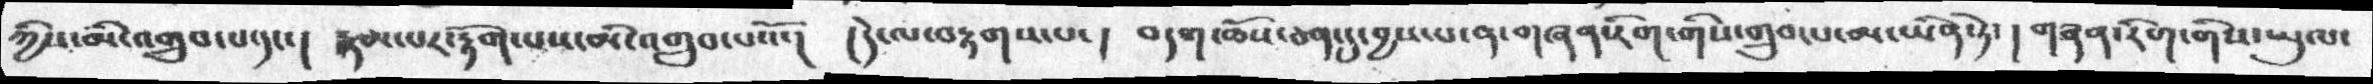ཀྱིས་མི་འགྲུབ་པ་དང་།  རྣམ་པར་རྟོག་པས་མི་འགྲུབ་པའོ་།  །དེ་ལ་བརྟགས་པ་།  བདག་ཆོས་ཅན་དུ་བྱས་པ་ན་གཞན་རིག་གིས་གྲུབ་པ་མ་ཡིན་ཏེ་། གཞན་རིག་གིས་ཡུལ་
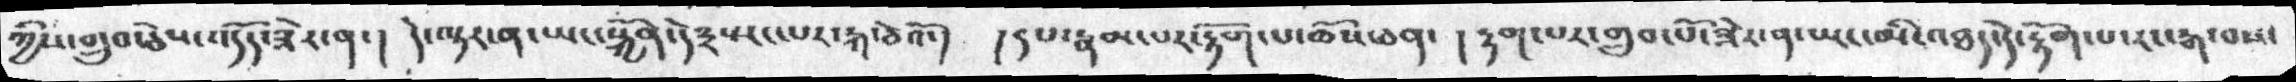ཀྱིས་གྲུབ་ཅེས་འདོད་ཟེར་ན་།  དེ་ལྟར་ན་ཡང་སྐྱོན་དེ༣སྤང་པར་རྐ་ཅེའོ་།  །དཔ་རྣམ་པར་རྟོག་པ་ཆོས་ཅན་ །རྟག་པར་གྲུབ་པོ་ཟེར་ན་ཡང་མི་འཐད་དེ་རྟོག་པ་རང་རྒ་བས་
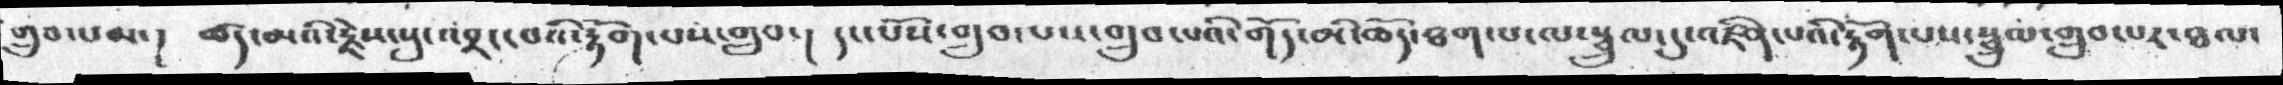གྲུབ་པམ་།  ཚད་མའི་རྗེས་སུ་འབྲང་བའི་རྟོག་པས་གྲུབ་།  དང་པོས་གྲུབ་པས་གྲུབ་པའི་གོད་མི་ཆོད་ཐག་པ་ལ་སྦྲུལ་དུ་འཛིན་པའི་རྟོག་པས་སྦྲུལ་གྲུབ་པར་ཐལ་
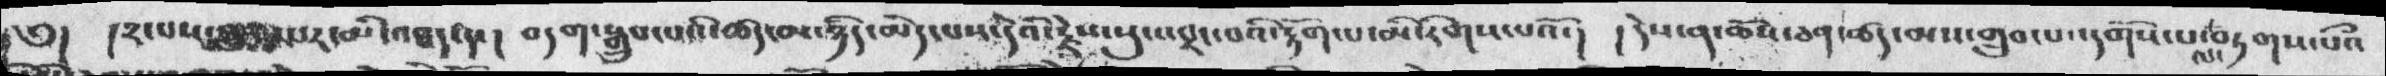༄།  །༢་པས་གྲུབ་པར་མི་འཐད་དེ་།  བདག་སྒྲུ་པའི་ཚད་མ་ཉིད་མེད་པས་དེའི་རྗེས་སུ་འབྲང་བའི་རྟོག་པ་མི་རིགས་པའོ་།  །དེས་ན་ཆོས་ཅན་ཚད་མས་གྲུབ་པ་དགོས་པ་ལ་བཏགས་པའི
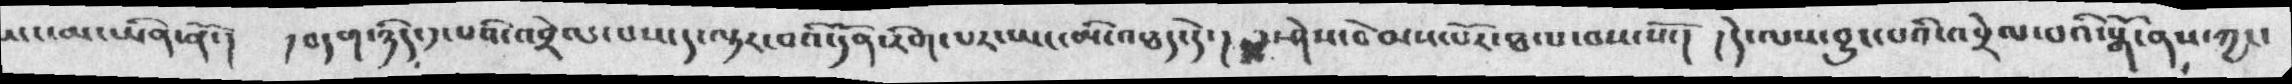སང་མ་ཡིན་ནོ་།  ། བདག་ཉིད་༡་པའི་འབྲེལ་པས་ད་ལྟར་བའི་དོན་རིག་པར་ཡང་མི་འཐད་དེ་།  ཤེས་བེམས་པོར་ཐལ་བས་སོ་།   ། དེ་ལས་བྱུང་པའི་འབྲེལ་བའི་སྒོ་ནས་ཀྱང་
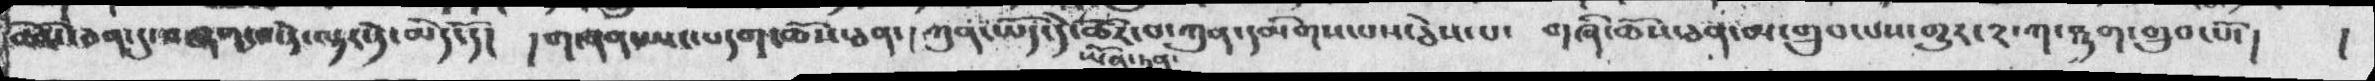ཆོས་ཅན་དུ་བཞག་པ་དེ་ལྟར་དེ་མེད་དོ་།   །གཞན་ཡང་བདག་ཆོས་ཅན་། ཀུན་ཡོད་དེ་ཡོན་ཏན་དེ་ཚོར་བ་ཀུན་དམིགས་པས་ཅེས་པ་   གཞི་ཆོས་ཅན་མ་གྲུབ་པས་གྱུར་༢་ག་ཐུག་གྲུབ་པོ་།   །
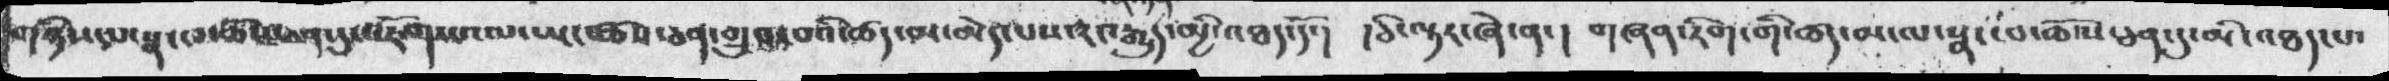གཉིས་པ་སྣང་བ་ཆོས་ཅན་དུ་འཇོགས་པ་ལ་ཡང་ཆོས་ཅན་གྲུབ་པའི་ཚད་མ་མེད་པས་རང་རྒྱུད་མྱི་འཐད་དོ་།   ། ཅི་ལྟེ་ཞེ་ན་།  གཞན་རིག་གི་ཚད་མ་ལ་སྣང་བ་ཆོས་ཅན་དུ་མི་འཐད་པ་
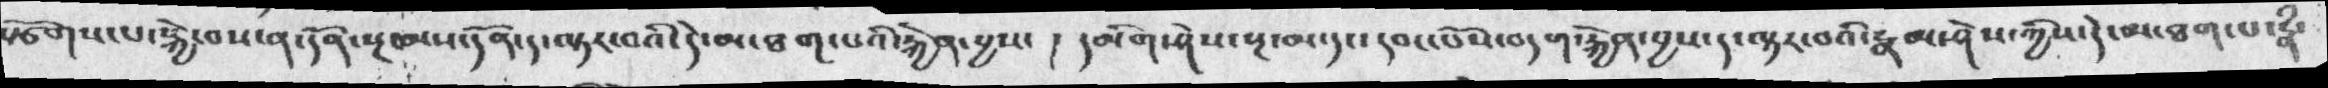སྩོགས་པ་སྐྱེ་བས་ན་དོན་སྔ་མས་དོན་ད་ལྟར་བའི་དེ་མ་ཐག་པའི་རྐྱེན་བྱས་ ། དམིག་ཤེས་སྔ་མ་དང་དབང་པོས་བདག་རྐྱེན་བྱས་ད་ལྟར་བའི་རྣམ་ཤེས་ཀྱིས་དེ་མ་ཐག་པ་རྣཾ་
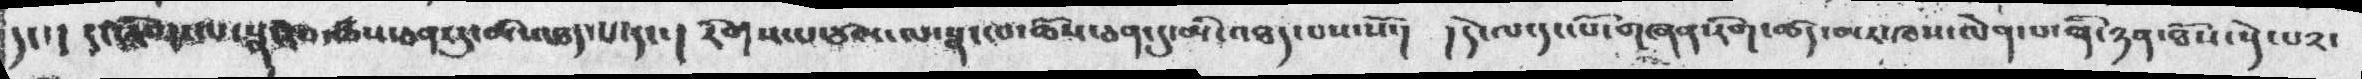དང་།  དང་རིག་པ་ལ་སྣང་བ་ཆོས་ཅན་དུ་མི་འཐད་པ་དང་།  རིགས་པ་ཙམ་ལ་སྣང་བ་ཆོས་ཅན་དུ་མི་འཐད་པས་སོ་།  ། དེ་ལ་དང་པོ་གཞན་རིག་ཚད་མར་ཁས་ལེན་པ་ནི་ཉན་ཐོས་སྡེ་པ༢་
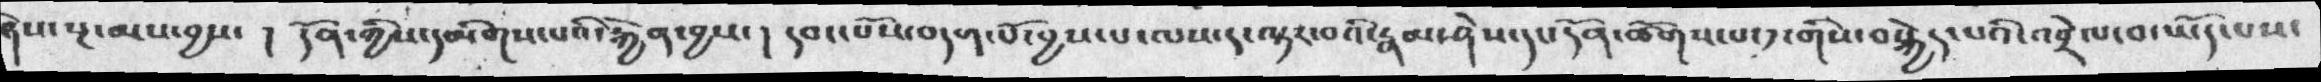ཞེས་སྔ་མས་བྱས་ ། དོན་ཀྱིས་དམིགས་པའི་རྐྱེན་བྱས་། དབང་པོས་བདག་པོ་བྱས་པ་ལས་ད་ལྟར་བའི་རྣམ་ཤེས་དང་དོན་ཚོགས་པ་༡་གིས་བསྐྱེད་པའི་འབྲེལ་བ་ཡོད་པས་
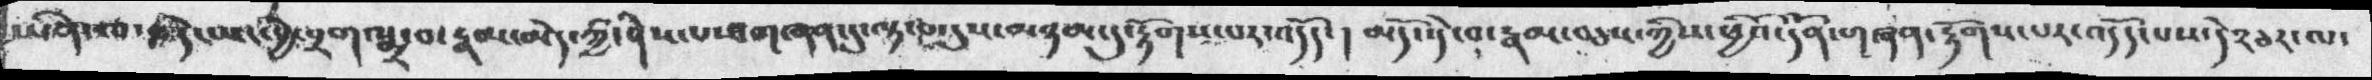ཡིན་རྩ་བ་དེ་ཡང་བྱེ་བྲག་སྨྲ་བ་རྣམ་མེད་ཀྱི་ཤེས་པས་གཞན་དུ་ལྟ་བ་དུས་མཉམ་དུ་རྟོགས་པར་འདོད་ །  མདོ་སྡེ་བ་རྣམ་བཅས་ཀྱིས་ཕྱིའི་དོན་གཞན་རྟོགས་པར་འདོད་པས་དེ་༢ཅར་ལ་
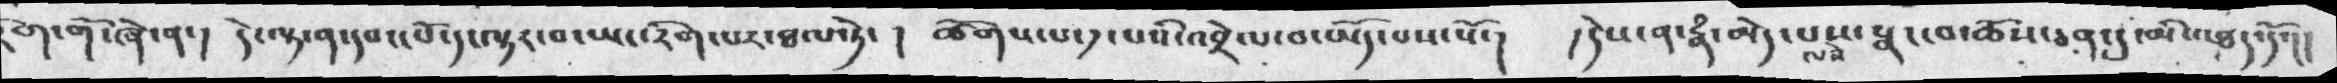ག་གོ་ཞེ་ན་།   དེ་ལྟ་ན་དབང་པོ་དང་ལྟར་བ་ཡང་རིག་པར་ཐལ་ཏེ་ ། ཚོགས་པ་༡་པའི་འབྲེལ་བ་ཡོད་པས་སོ་།  ། དེས་ན་རྣཾ་མེད་པས་སྣང་བ་ཆོས་ཅན་དུ་མི་འཐད་དོ་།།
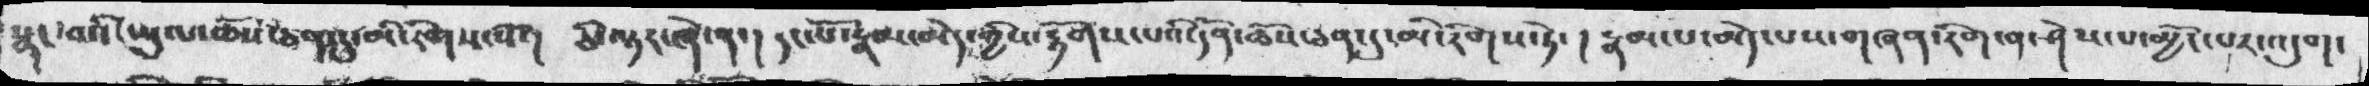སྣང་བའི་ཡུལ་ཆོས་ཅན་དུ་མི་རིགས་སོ་།  ཅི་ལྟར་ཞེ་ན་།   དང་པོ་རྣམ་མེད་ཀྱིས་རྟོགས་པའི་དོན་ཆོས་ཅན་དུ་མི་རིགས་ཏེ་།  རྣམ་པ་མེད་པས་གཞན་རིག་ན་ཤེས་པ་མྱོང་པར་འདུག་
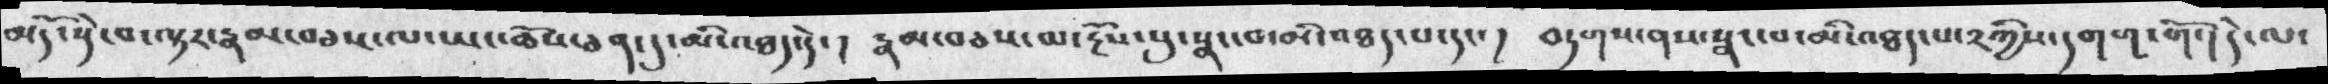མདོ་སྡེ་བ་ལྟར་རྣམ་བཅས་ལ་ཡང་ཆོས་ཅན་དུ་མི་འཐད་དེ་།  རྣམ་བཅས་མ་རྔོས་སུ་སྣང་བ་མི་འཐད་པ་དང་།  བཏགས་ནས་སྣང་པ་མི་འཐད་པ་༢ཀྱིས་དགག་གོ་། དེ་ལ་
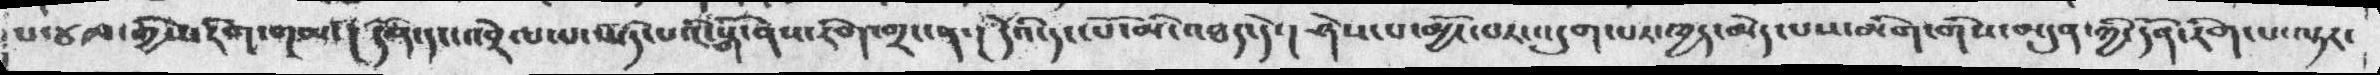པ་ཙམ་གྱིས་རིག་གམ་།   དོན་དང་འབྲེལ་པ་ཡོད་པའི་སྒོ་ནས་རིག་གྲང་ན་།  དེའི་དང་པོ་མི་འཐད་དེ་།   ཤེས་པ་མྱོང་པར་འདུག་པར་ཕྱད་མེད་པས་མིག་གིས་མདུན་ཀྱི་དོན་རིག་པ་ལྟར་
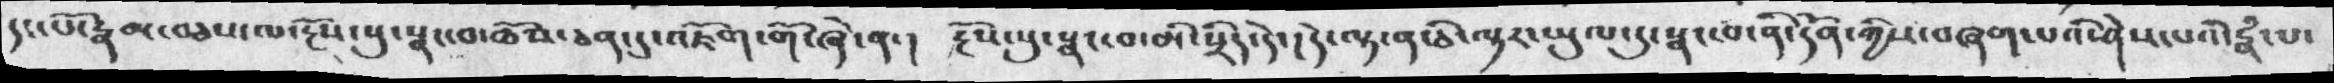དང་པོ་རྣམ་བཅས་ལ་རྔོས་སུ་སྣང་བ་ཆོས་ཅན་དུ་ཇོག་གོ་ཞེ་ན་།  རྔོས་སུ་སྣང་བ་མི་སྲིད་དེ་།དེ་ལྟ་ན་ཅི་ལྟར་ཡུལ་དུ་སྣང་བ་ནི་དོན་ཀྱིས་བཞག་པའི་ཤེས་པའི་རྣཾ་པ་
